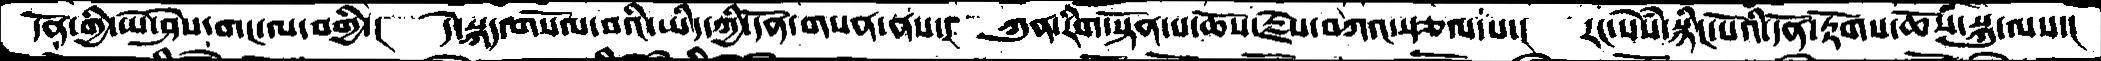དོན་གྱི་ཡེ་ཤེས་གང་ལ་བགྱི་།  དེ་སྐད་གསོལ་བའི་ཡིད་ཀྱི་དོན་གསན་ནས་།  ཀུན་རིག་སྟོན་པ་ཆོས་རྗེས་བཀའ་སྩལ་པ་།  རང་སེསཾ་སྙིང་པོའི་དོན་རྟོགས་ཆོས་སྐུ་ལས་།
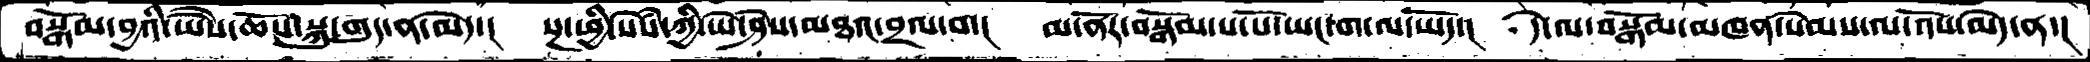བསྒོམ་བྱའི་ཡཻས་ཆོས་སྐུ་གུད་ན་མེད་།  སྔ་ཕྱི་སེསཾ་ཀྱི་ཡེ་ཤེས་མཐའ་བྲལ་བ་།  མ་ནོར་བསྒོམ་པ་པོ་ཡང་ག་ལ་ཡོད་།  དེ་ལ་བསྒོམ་མཁན་སེམས་ལ་འོས་མེད་ན་།
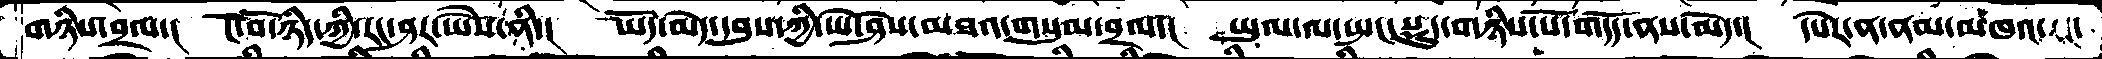གཉིས་བྲལ་།  ངོ་བོ་ཉིད་ཀྱི་རང་ཤར་ཡཻས་ནི་།  ཡོད་མེད་དབུས་ཀྱི་ཡེ་ཤེས་མཐའ་གསུམ་བྲལ་།  ཡུལ་ལ་སྤང་སྡུད་གཉིས་པོ་གདོད་ནས་མེད་།   དཔེར་ན་ནམ་མཁའ་་རང་
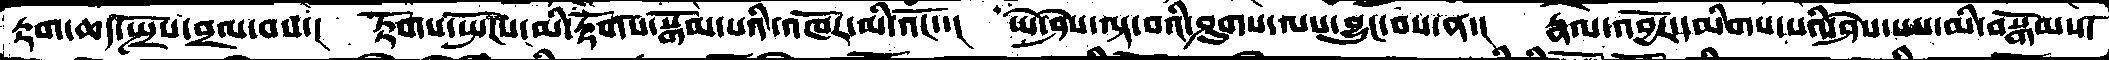རྟག་ཆད་སྤྲོས་བྲལ་བས་། རྟོགས་སྤོངས་་མི་རྟོགས་སྒོམ་པའི་འཁོར་མི་འོང་་། ཡེ་ཤེས་ལྟ་བའི་ཤུགས་ལས་བྱུང་བས་ན་། རྣལ་འབྱོར་དམིགས་པའི་ཤེས་པས་མི་བསྒོམས་
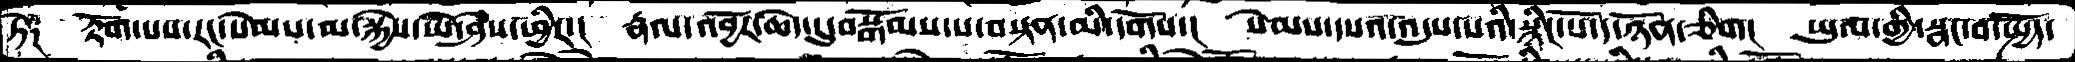ཏེ༑  རྟོག་པས་རང་སེམས་མ་སྐྱེས་ཡེ་ཤེས་ཕྱིར་།  རྣལ་འབྱོར་ཆེད་དུ་བསྒོམས་པ་བསྟན་མི་དགོས་།  སེམས་དཔའ་འདུས་པའི་སྙིང་པོ་ད་ཉོན་ཅིག།  ཡུལ་གྱི་སྣང་བ་སྤྱོད་
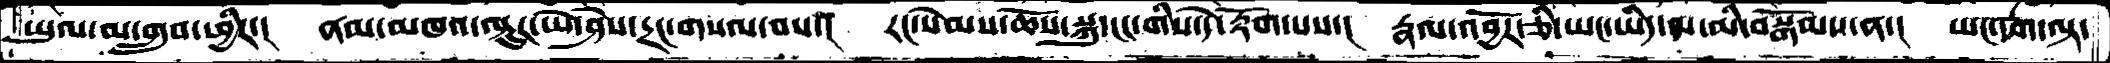ཡུལ་མ་གྲུབ་ཕྱིར་། ནམ་མཁའ་ལྟུར་ཡེ་ཤེས་དྲང་གསལ་བས་། རང་སེམས་ཆོས་སྐུ་ངང་གིས་དེ་རྟོགས་པས་། རྣལ་འབྱོར་ཅི་ཡང་ཡིད་ལ་མི་བསྒོམས་ན་། ཡང་དག་ལྟ་
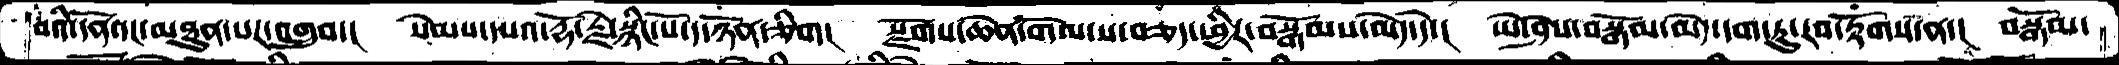བའི་དོན་དང་མཐུན་པར་འགྲུབ་།  སེམས་དཔའ་རྡོ་རྗེ་སྙིང་པོ་ད་ཉོན་ཅིག།  སྫོགས་ཆེན་གོལ་ས་བཅད་ཕྱིར་བསྒོམས་མེད་དེ་།  ཡེ་ཤེས་བསྒོམ་མེད་དག་ཏུ་རབ་རྟོགས་ན་།  བསྒོམ་
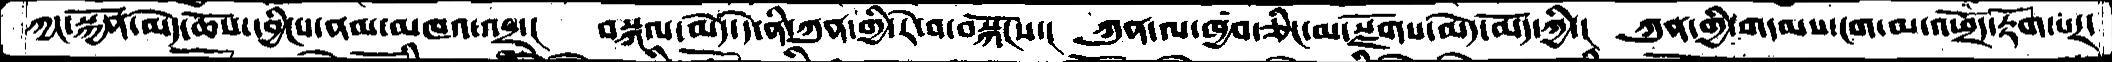ཀྱང་སྐྱོན་མེད་ཆོས་དབྱིངས་ནམ་མཁའ་འདྲ་།  བསྐལ་མེད་དེ་ནི་ཀུན་གྱི་རེ་བ་བསྐོངས་།  ཀུན་ལ་ཁྱབ་ཅིང་མ་སྫོགས་མེད་མོད་ཀྱི་།  ཀུན་གྱི་གདམས་ངག་མ་འཕྲོད་རྟོག་པར་
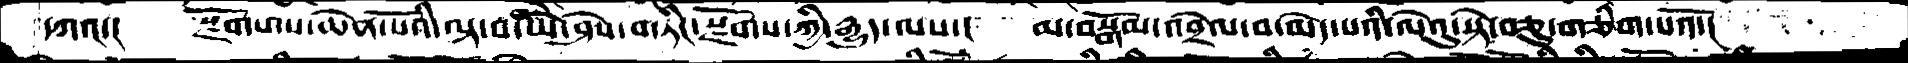དཀའ་།   སྫོགས་པ་ཆེན་པོའི་ལྟ་བ་ཡེ་ཤེས་གཏིང་སྫོགས་ཀྱི་རྒྱུད་ལས་།   མ་བསྒོམ་འབྲེལ་བ་མེད་པའི་ལེའུ་སྟེ་བཅུ་གཅིག་པའོ་།
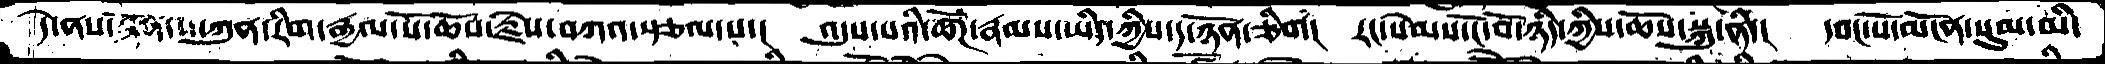དེ་ནས་  ཀུན་རིག་རྒྱལ་པོ་ཆོས་རྗེས་བཀའ་སྩལ་པ་།  འདུས་པའི་ཚོཌ་རྣམས་ཡིད་ཀྱིས་ད་ཉོན་ཅིག།  རང་སེམས་ངོ་བོ་ཉིད་ཀྱིས་ཆོས་སྐུ་ནི་།  དབང་པོ་མངོན་སུམ་མི་
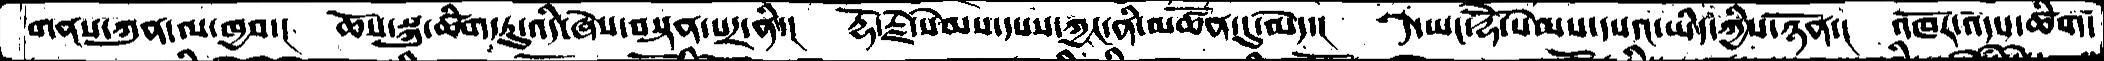གནས་ཀུན་ལ་ཁྱབ་།  ཆོས་སྐུ་ཚིག་ཏུ་འདི་ཞེས་བསྟན་པར་ནི་།  རྡོ་རྗེ་སེམས་དཔས་ཀྱང་ནི་མཚོན་དུ་མེད་།  དེ་ཡང་རྡོེ་སེམས་དཔའ་ཡིད་ཀྱིས་ཉོན་།  འཁོར་འདས་ཚིག་
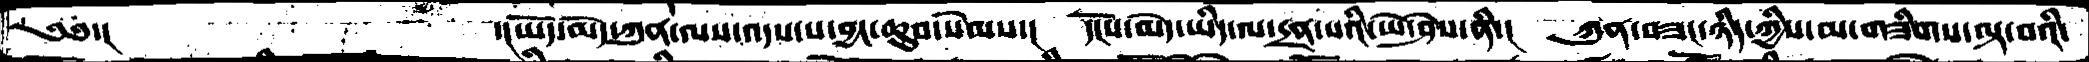༄༅་།                  ་།ཡོད་མེད་ཀུན་ལས་འདས་པ་བྱང་ཆུབ་སེམས་།  དངོས་མེད་ཡིད་ལ་དྲན་པའི་ཡེ་ཤེས་ནི་།  ཀུན་བཟང་ཉིད་ཀྱིས་མ་གཟིགས་ལྟ་བའི་
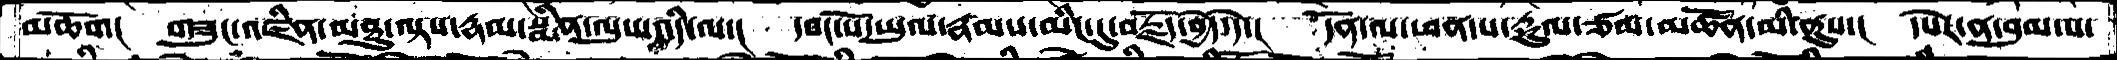མཆོག།  གཟུང་འཛིན་མཐུ་ལྟས་རྣམ་སྨིན་ལུས་འདི་ལ་།  དབང་པོ་ཡུལ་རྣམས་མིང་དུ་བརྗོད་བྱེད་དེ་།  དོན་ལ་ཕན་པ་རྡུལ་ཙམ་མཚོན་མི་ནུས་།  དཔེར་ན་བུམ་པ་
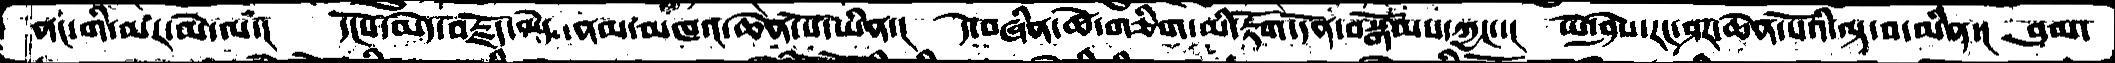ནང་གི་མར་མེེ་ལ་།  དངོས་མེད་བརྗོད་མེད ་ནམ་མཁའ་ཆེན་པོ་ཡིན་།  དེ་བཞིན་ཚེ་གཅིག་མི་རྟོག་དོན་བསྒོམས་ཀྱང་་།  ཡེ་ཤེས་རང་ཤར་ཆེན་པོའི་ལྟ་བ་མིན་།  བུམ་
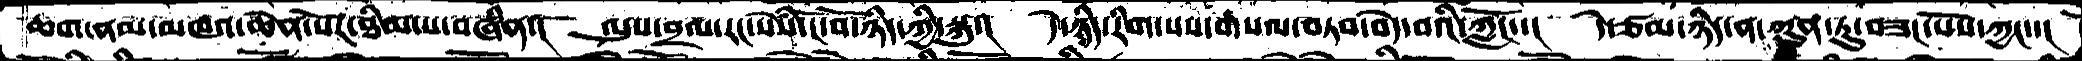ཆག་ནམ་མཁའ་ཆེན་པོར་ཐིམ་པ་བཞིན་།  ལུས་བྲལ་རང་སེསཾ་ངོ་བོ་ཉིད་ཀྱི་སྐུ་།  དེ་ཉིད་རིག་པས་གསལ་བཏབ་བདེ་བའི་ཀློང་་།  དེ་ཙམ་ཉིད་ན་ཀུན་ཏུ་བཟང་པོས་ཀྱང་་།
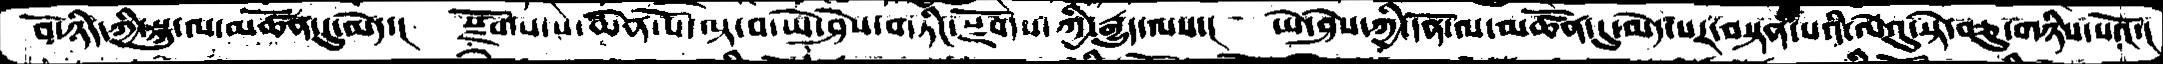བོ་ཉིད་ཀྱི་སྐུ་ལ་མཚོན་དུ་མེད་།  སྫོགས་པ་ཆེན་པོ་ལྟ་བ་ཡེ་ཤེས་གཏིང་སྫོགས་ཀྱི་རྒྱུད་ལས་།  ཡེ་ཤེས་ཀྱི་དོན་ལ་མཚོན་དུ་མེད་པར་བསྟན་པའི་ལེའུ་སྟེ་བཅུ་གཉིས་པའོ་།
